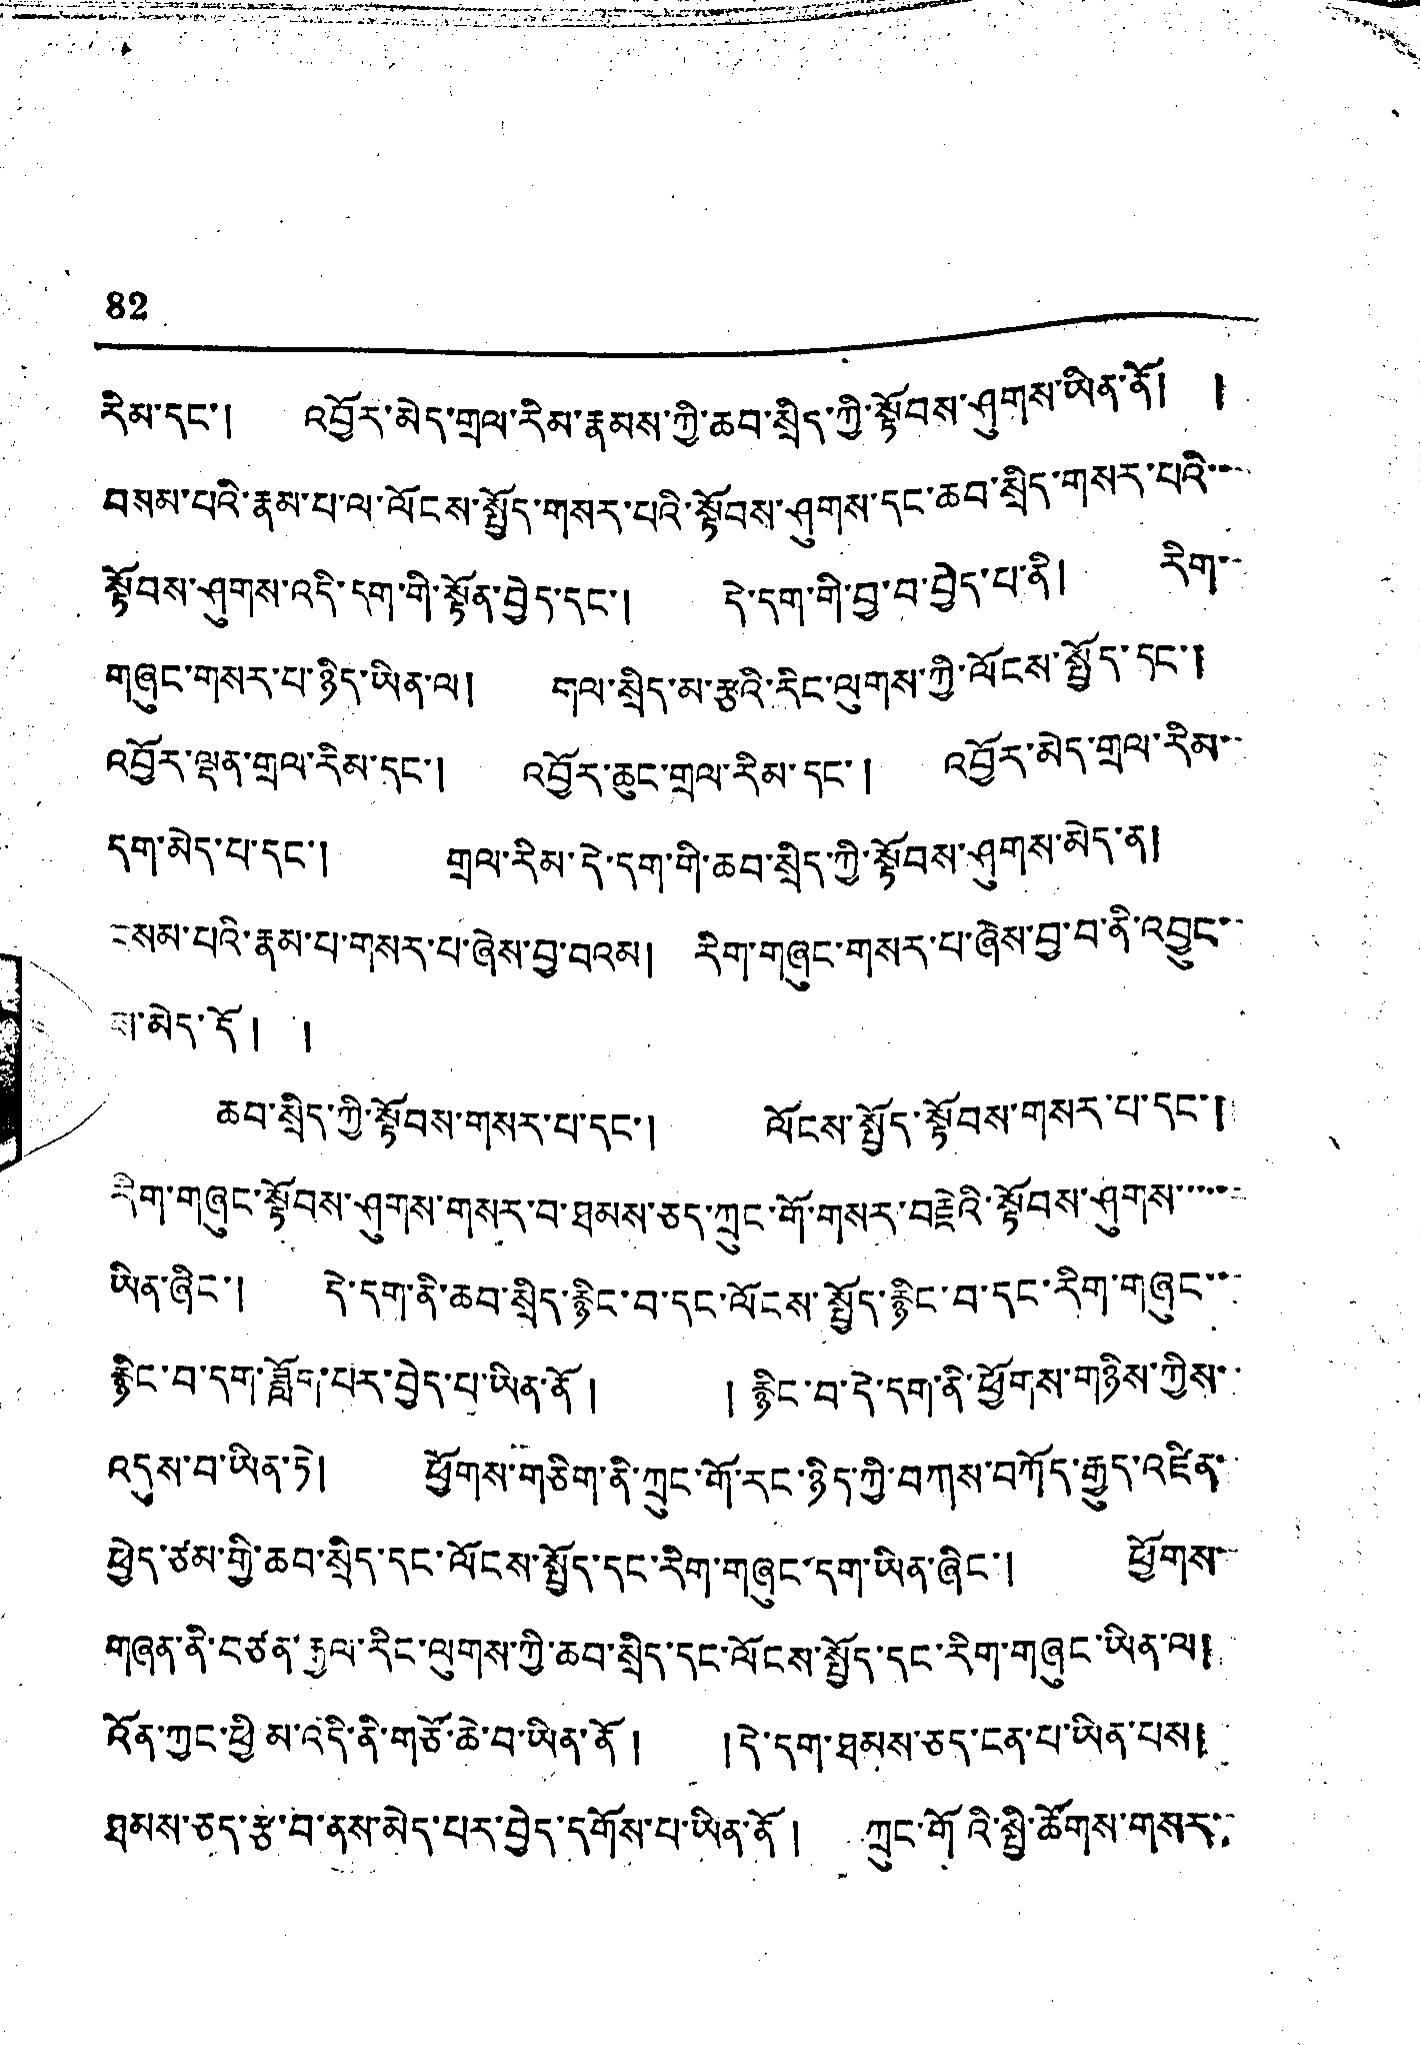82
རིམ་དང་། འབྱོར་མེད་གྲལ་རེམ་རྣམས་ཀྱི་ཆབ་སྲིད་ཀྱི་སྟོབས་ཤུགས་ཡིན་ནོ། །
བསམ་པའི་རྣམ་པ་ལ་ལོངས་སྤྱོད་གསར་པའི་སྟོབས་ཤུགས་དང་ཆེབ་སྲིད་གསར་བར་བེ་་་
སྟོབས་ཤུགས་འདི་དག་གི་སྟོན་བྱེད་དང་། དེ་དག་གི་བྱ་བ་བྱེད་པ་ནི། རིག་
གཞུང་གསར་པ་ཉིད་ཡིན་ལ། བལ་སྲིད་མ་རྩའི་རེང་ལུགས་ཀྱི་ལོངས་སྤྱོད་དང་།
འབྱོར་ལྡན་གྲལ་རིམ་དང་། འབྱོར་ཆུང་གྲལ་རིམ་དང་། འབྱོར་མེད་གྲིལ་རམ་་
དག་མེད་པ་དང་། གྲལ་རིམ་དེ་དག་གི་ཆབ་སྲིད་ཀྱི་སྟོབས་ཤུགས་མེད་ན།
བསམ་པའི་རྣམ་པ་གསར་པ་ཞེས་བྱ་བའམ། རིག་གཞུང་གསར་པ་ཞེས་བྱ་བནི་འབྱུང་
ས་མེད་དོ། །
ཆབ་སྲིད་ཀྱི་སྟོབས་གསར་པ་དང་། ལོངས་སྤྱོད་སྟོབས་གསར་བཔ་དང་།
རིག་གཞུང་སྟོབས་ཤུགས་གསར་བ་ཐམས་ཅད་ཀྲུང་གོ་གསར་བརྗེའི་སྟོབས་ཤིགས་་་་་་
ཡིན་ཞིང་། དེ་དག་ནི་ཆབ་སྲིད་རྙིང་བ་དང་ལོངས་སྤྱོད་རྙིང་བ་དང་རིག་གཞུང་་་
རྙིང་བ་དག་ཟློག་པར་བྱེད་པ་ཡིན་ནོ ། ། རྙིང་བ་དེ་དག་ནི་ཕྱོགས་གཉིས་ཀྱིས་
འདུས་བ་ཡིན་ཏེ། ཕྱོགས་གཅིག་ནི་ཀྲུང་གོ་རང་ཉིད་ཀྱི་བཀས་བཀོད་རྒྱུད་འཛིན་
ཕྱེད་ཙམ་གྱི་ཆབ་སྲིད་དང་ལོངས་སྤྱོད་དང་རིག་གཞུང་དག་ཡིན་ཞིང་། ཕྱོགས་
གཞན་ནི་བཙན་རྒྱལ་རིང་ལུགས་ཀྱི་ཆབ་སྲིད་དང་ལོངས་སྤྱོད་དང་རིག་གཞུང་ཡིན་ལ།
འོན་ཀྱང་ཕྱི་མ་འདི་ནི་གཙོ་ཆེ་བ་ཡིན་ནོ ། །དེ་དག་ཐམས་ཅད་ངན་པ་ཡིན་པས།
ཐམས་ཅད་རྩ་བ་ནས་མེད་པར་བྱེད་དགོས་པ་ཡིན་ནོ ། ཀྲུང་གོའི་སྤྱི་ཚོགས་གསར་
